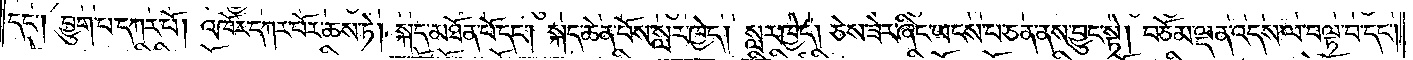དང༌། བྱུག་པ་དཀར་པོ། འཁོར་དཀར་པོར་ཆས་ཏེ། སྐད་མཐོན་པོ་དང༌། སྐད་ཆེན་པོས་སླར་ཁྱེད། སླར་ཁྱེད། ཅེས་ཟེར་ཞིང་ཡངས་པ་ཅན་ནས་བྱུང་སྟེ། བཅོམ་ལྡན་འདས་ལ་བལྟ་བ་དང༌།
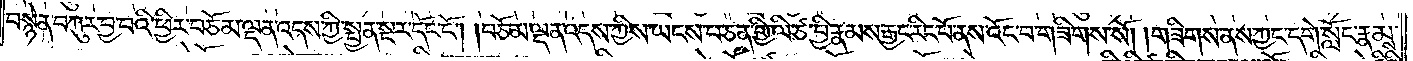བསྙེན་བཀུར་བྱ་བའི་ཕྱིར་བཅོམ་ལྡན་འདས་ཀྱི་སྤྱན་སྔར་དོང་ངོ༌། །བཅོམ་ལྡན་འདས་ཀྱིས་ཡངས་པ་ཅན་གྱི་ལི་ཙ་བྱི་རྣམས་རྒྱང་རིང་པོ་ནས་འོང་བ་གཟིགས་སོ། །གཟིགས་ནས་ཀྱང་དགེ་སློང་རྣམས་
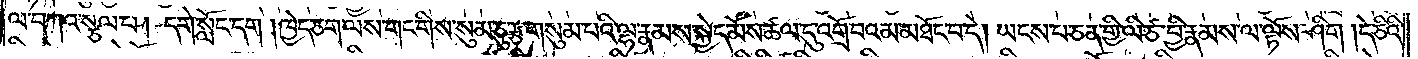ལ་བཀའ་སྩལ་པ། དགེ་སློང་དག །ཁྱེད་ཅག་ལས་གང་གིས་སུམ་ཅུ་རྩ་གསུམ་པའི་ལྷ་རྣམས་སྐྱེད་མོས་ཚལ་དུ་འགྲོ་བའམ་མཐོང་བ་དེ། ཡངས་པ་ཅན་གྱི་ལི་ཙ་བྱི་རྣམས་ལ་ལྟོས་ཤིག །དེ་ཅིའི་
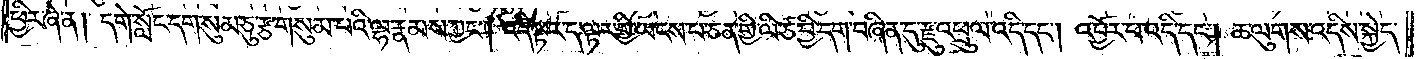ཕྱིར་ཞེ་ན། དགེ་སློང་དག་སུམ་ཅུ་རྩ་གསུམ་པའི་ལྷ་རྣམས་ཀྱང༌། འདི་ལྟར་ད་ལྟར་གྱི་ཡངས་པ་ཅན་གྱི་ལི་ཙ་བྱི་དག་བཞིན་དུ་རྫུ་འཕྲུལ་འདི་དང༌། འབྱོར་པ་འདི་དང༌། ཆ་ལུགས་འདིས་སྐྱེད་
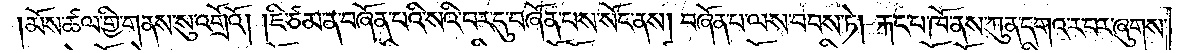མོས་ཚལ་གྱི་གནས་སུ་འགྲོའོ། །ཇི་ཙམ་ན་བཞོན་པའི་སའི་བར་དུ་བཞོན་པས་སོང་ནས། བཞོན་པ་ལས་བབས་ཏེ། རྐང་པ་ཁོ་ནས་ཀུན་དགའ་ར་བར་ཞུགས་
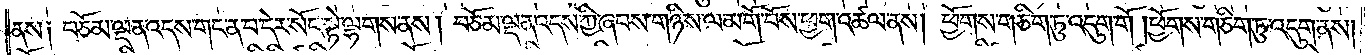ནས༑ བཅོམ་ལྡན་འདས་གང་ན་བ་དེར་སོང་སྟེ་ལྷགས་ནས། བཅོམ་ལྡན་འདས་ཀྱི་ཞབས་གཉིས་ལ་མགོ་བོས་ཕྱག་འཚལ་ནས། ཕྱོགས་གཅིག་ཏུ་འདུག་གོ །ཕྱོགས་གཅིག་ཏུ་འདུག་ནས།
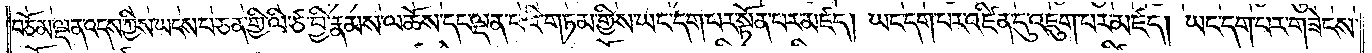བཅོམ་ལྡན་འདས་ཀྱིས་ཡངས་པ་ཅན་གྱི་ལི་ཙ་བྱི་རྣམས་ལ་ཆོས་དང་ལྡན་པའི་གཏམ་གྱིས་ཡང་དག་པར་སྟོན་པར་མཛད། ཡང་དག་པར་འཛིན་དུ་འཇུག་པར་མཛད། ཡང་དག་པར་གཟེངས་
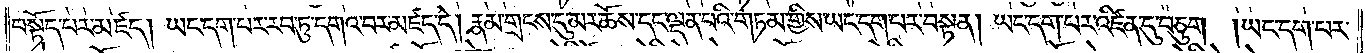བསྟོད་པར་མཛད། ཡང་དག་པར་རབ་ཏུ་དགའ་བར་མཛད་དེ། རྣམ་གྲངས་དུ་མར་ཆོས་དང་ལྡན་པའི་གཏམ་གྱིས་ཡང་དག་པར་བསྟན། ཡང་དག་པར་འཛིན་དུ་བཅུག །ཡང་དག་པར་
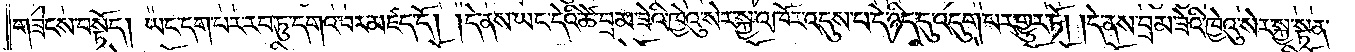གཟེངས་བསྟོད། ཡང་དག་པར་རབ་ཏུ་དགའ་བར་མཛད་དོ། །དེ་ནས་ཡང་དེའི་ཚེ་བྲམ་ཟེའི་ཁྱེའུ་སེར་སྐྱ་འཁོར་འདུས་པ་དེ་ཉིད་དུ་འདུག་པར་གྱུར་ཏོ། །དེ་ནས་བྲམ་ཟེའི་ཁྱེའུ་སེར་སྐྱ་སྟན་
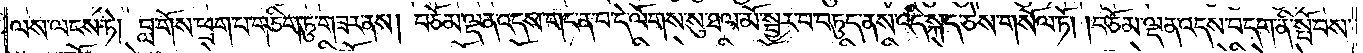ལས་ལངས་ཏེ། བླ་གོས་ཕྲག་པ་གཅིག་ཏུ་གཟར་ནས། བཅོམ་ལྡན་འདས་གང་ན་བ་དེ་ལོགས་སུ་ཐལ་མོ་སྦྱར་བ་བཏུད་ནས་འདི་སྐད་ཅེས་གསོལ་ཏོ། །བཅོམ་ལྡན་འདས་བདག་ནི་སྤོབས་
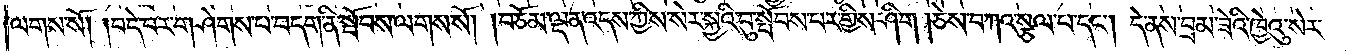ལགས་སོ། །བདེ་བར་གཤེགས་པ་བདག་ནི་སྤོབས་ལགས་སོ། །བཅོམ་ལྡན་འདས་ཀྱིས་སེར་སྐྱའི་བུ་སྤོབས་པར་གྱིས་ཤིག །ཅེས་བཀའ་སྩལ་པ་དང༌། དེ་ནས་བྲམ་ཟེའི་ཁྱེའུ་སེར་
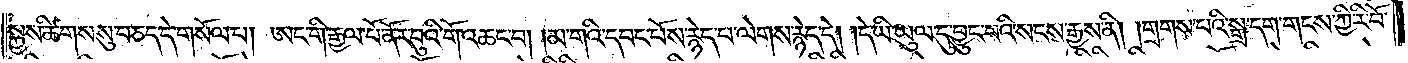སྐྱས་ཚིགས་སུ་བཅད་དེ་གསོལ་པ། ཨང་གི་རྒྱལ་པོ་ནོར་བུའི་གོ་འཆང་བ། །མ་གའི་དབང་པོས་རྙེད་པ་ལེགས་རྙེད་དེ། །དེ་ཡི་ཡུལ་དུ་བྱུང་བའི་སངས་རྒྱས་ནི། །གྲགས་པའི་སྒྲ་དག་གངས་ཀྱི་རི་བོ་
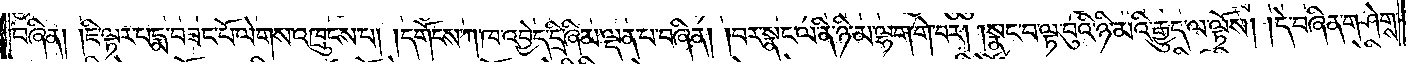བཞིན། །ཇི་ལྟར་པདྨ་བཟང་པོ་ལེགས་འཁྲུངས་པ། །དགོངས་ཀ་ཁ་འབྱེད་དྲི་ཞིམ་ལྡན་པ་བཞིན། །བར་སྣང་ལ་ནི་ཉི་མ་ལྷག་གེ་པར། །སྣང་བ་ལྟ་བུའི་ཉི་མའི་རྒྱུད་ལ་ལྟོས། །དེ་བཞིན་གཤེགས་
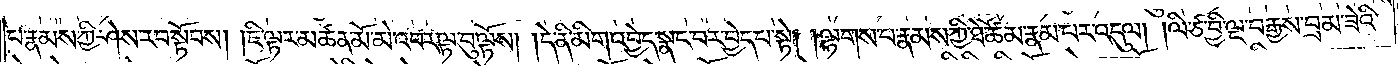པ་རྣམས་ཀྱི་ཤེས་རབ་སྟོབས། །ཇི་ལྟར་མཚན་མོ་མེ་འབར་ལྟ་བུ་ལྟོས། །དེ་ནི་མིག་འབྱེད་སྣང་བར་བྱེད་པ་སྟེ། །ལྷགས་པ་རྣམས་ཀྱི་ཐེ་ཚོམ་རྣམ་པར་འདུལ། །ལི་ཙ་བྱི་ལྔ་བརྒྱས་བྲམ་ཟེའི་
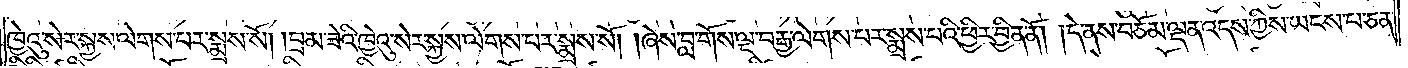ཁྱེའུ་སེར་སྐྱས་ལེགས་པར་སྨྲས་སོ། །བྲམ་ཟེའི་ཁྱེའུ་སེར་སྐྱས་ལེགས་པར་སྨྲས་སོ། །ཞེས་བླ་གོས་ལྔ་བརྒྱ་ལེགས་པར་སྨྲས་པའི་ཕྱིར་བྱིན་ནོ། །དེ་ནས་བཅོམ་ལྡན་འདས་ཀྱིས་ཡངས་པ་ཅན་
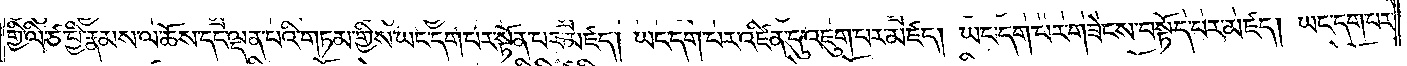གྱི་ལི་ཙ་བྱི་རྣམས་ལ་ཆོས་དང་ལྡན་པའི་གཏམ་གྱིས་ཡང་དག་པར་སྟོན་པར་མཛད། ཡང་དག་པར་འཛིན་དུ་འཇུག་པར་མཛད། ཡང་དག་པར་གཟེངས་བསྟོད་པར་མཛད། ཡང་དག་པར་
